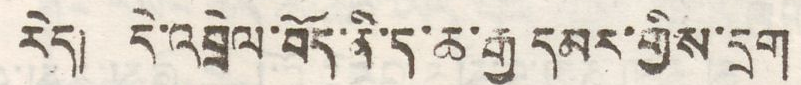རེད། དེ་འབྲེལ་བོད་ནི་ད་ཆ་རྒྱ་དམར་གྱིས་དྲག
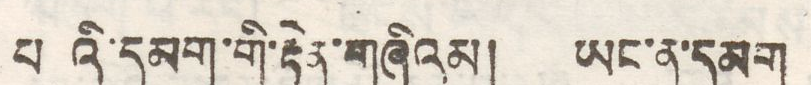པ འི་དམག་གི་རྟེན་གཞིའམ། ཡང་ན་དམག
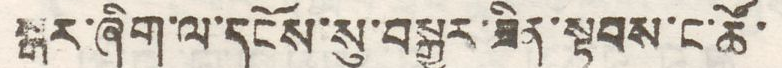སྒར་ཞིག་ལ་དངོས་སུ་བསྒྱུར་ཟིན་སྟབས་ང་ཚོ་
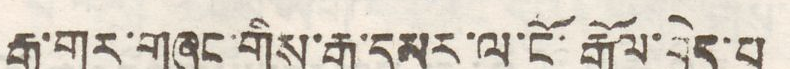རྒྱ་གར་གཞུང་གིས་རྒྱ་དམར་ལ་ངོ་རྒོལ་བྱེད་པ
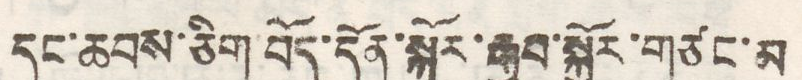དང་ཆབས་ཅིག་བོད་དོན་སྐོར་རྒྱབ་སྐྱོར་གཙང་མ
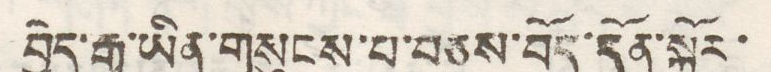བྱེད་རྒྱུ་ཡིན་གསུངས་པ་བཅས་བོད་དོན་སྐོར་
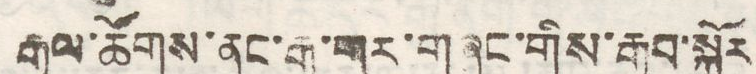རྒྱལ་ཚོགས་ནང་རྒྱ་གར་གཞུང་གིས་རྒྱབ་སྐྱོར་
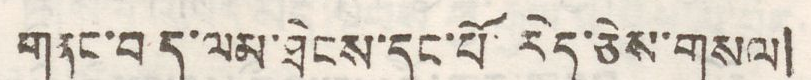གནང་བ ད་ལམ་ཐེངས་དང་པོ་རེད་ཅེས་གསལ།
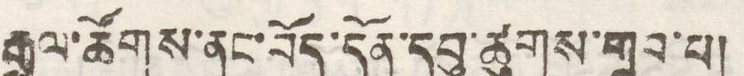རྒྱལ་ཚོགས་ནང་བོད་དོན་དབུ་ཚུགས་གྲུབ་པ།
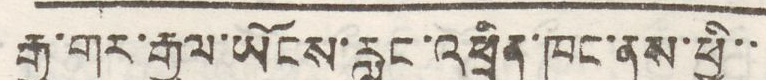རྒྱ་གར་རྒྱལ་ཡོངས་རླུང་འཕྲིན་ཁང་ནས་ཕྱི་་
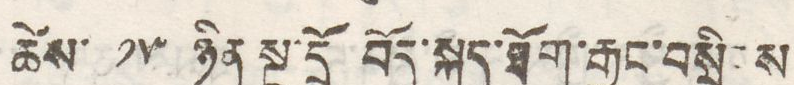ཚེས་ ༡༥ ཉིན་སྔ་དྲོ བོད་སྐད་ཐོག་རྒྱང་བསྲིངས
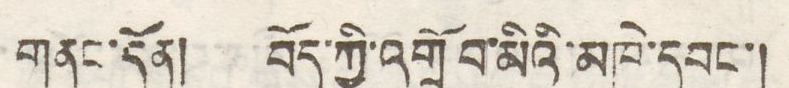གནང་དོན། བོད་ཀྱི་འགྲོ་བ་མིའི་མཁེ་དབང་།
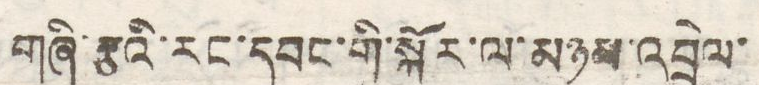གཞི་རྩའི་རང་དབང་གི་སྐོར་ལ་མཉམ་འབྲེལ་
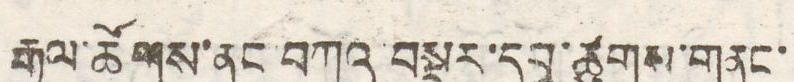རྒྱལ་ཚོགས་ནང་བཀའ་བསྡུར་དབུ་ཚུགས་གནང་
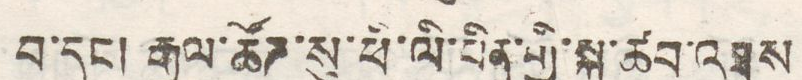བ་དང་། རྒྱལ་ཚོཌ་སུ་ཕི་ལི་པིན་གྱི་སྐུ་ཚབ་འཐུས
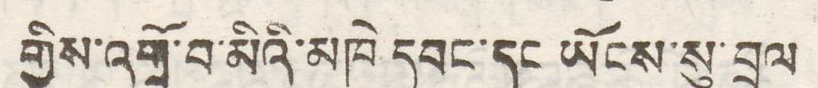གྱིས་འགྲོ་བ་མིའི་མཁེ དབང་དང ཡོངས་སུ་བྲལ
